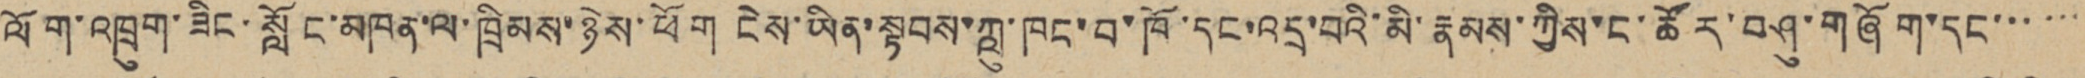ལོག་འཁྲུག་ཟིང་སློང་མཁན་ལ་ཁྲིམས་ཉེས་ཕོག ངེས་ཡིན་སྟབས་ཀླུ་ཁང་བ་ཁོ་དང་འདྲ་བའི་མི་རྣམས་ཀྱིས་ང་ཚོར་བཤུ་གཞོག་དང་་་་་་
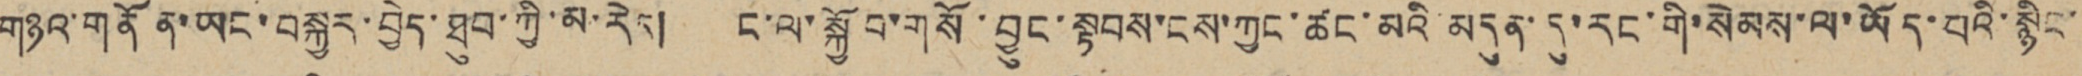གཉའ་གནོན་ཡང་བསྐྱར་བྱེད་ཐུབ་ཀྱི་མ་རེད། ང་ལ་སྐྱོབ་གསོ་བྱུང་སྟབས་ངས་ཀྱང་ཚང་མའི་མདུན་དུ་རང་གི་སེམས་ལ་ཡོད་པའི་སྙིང་
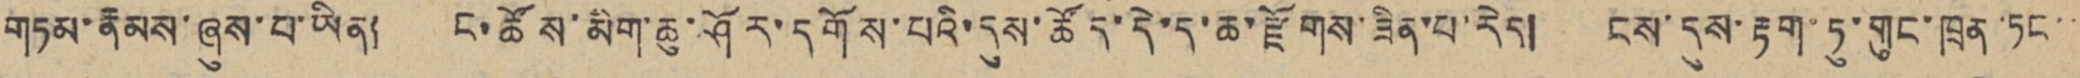གཏམ་རྣམས་ཞུས་པ་ཡིན། ང་ཚོས་མིག་ཆུ་ཤོར་དགོས་པའི་དུས་ཚོད་དེ་ད་ཆ་རྫོགས་ཟིན་པ་རེད། ངས་དུས་རྟག་ཏུ་གུང་ཁྲན་ཏང་
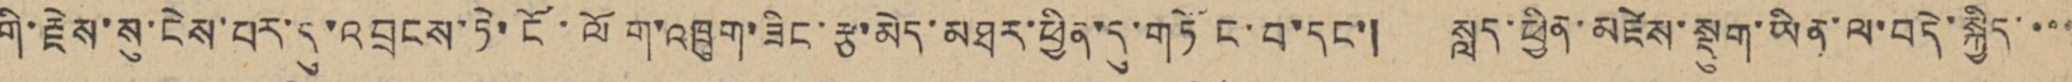གི་རྗེས་སུ་ངེས་པར་དུ་འབྲངས་ཏེ་ངོ་ལོག་འཁྲུག་ཟིང་རྩ་མེད་མཐར་ཕྱིན་དུ་གཏོང་བ་དང་། སླད་ཕྱིན་མཛེས་སྡུག་ཡིན་ལ་བདེ་སྐྱིད་་་་
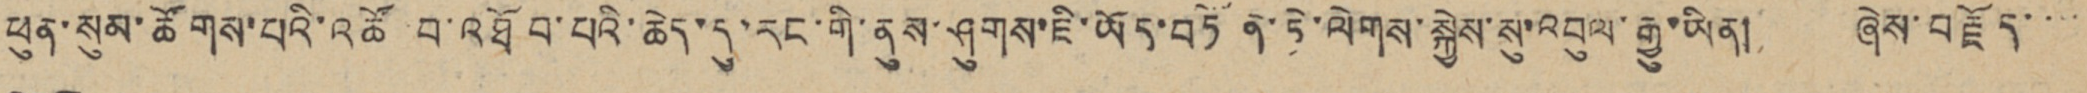ཕུན་སུམ་ཚོགས་པའི་འཚོ བ་འཐོབ་པའི་ཆེད་དུ་རང་གི་ནུས་ཤུགས་ཇི་ཡོད་བཏོན་ཏེ་ལེགས་སྐྱེས་སུ་འབུལ་རྒྱུ་ཡིན། ཞེས་བརྗོད་་་་
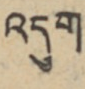འདུག
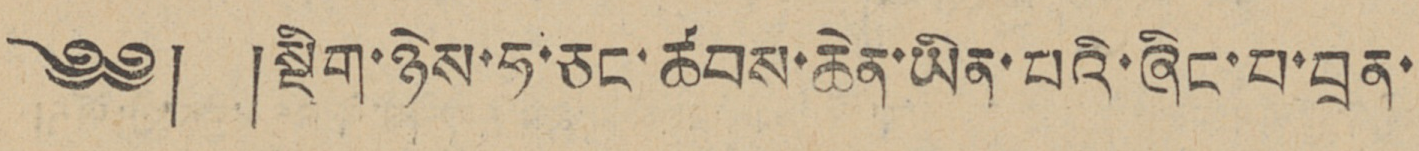༄༅། །སྡིག་ཉེས་ཧ་ཅང་ཚབས་ཆེན་ཡིན་པའི་ཞིང་པ་བྲན་
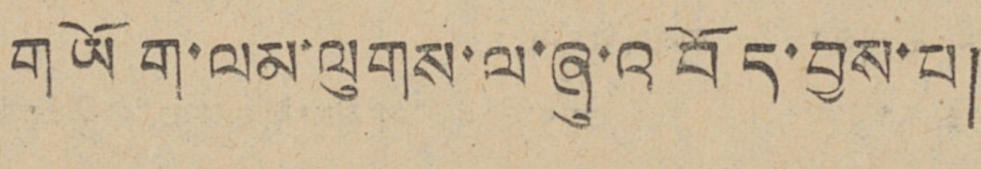གཡོག་ལམ་ལུགས་ལ་ཞུ་འབོད་བྱས་པ།
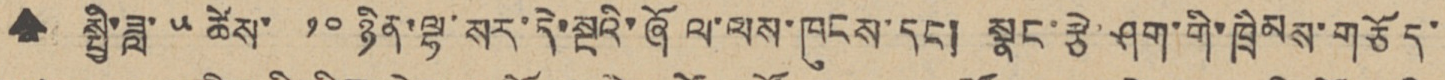🠹 སྤྱི་ཟླ་ ༥ ཚེས་ ༡༠ ཉིན་ལྷ་སར་དེ་སྔའི་ཞོལ་ལས་ཁུངས་དང། སྣང་རྩེ་ཤག་གི་ཁྲིམས་གཅོད་
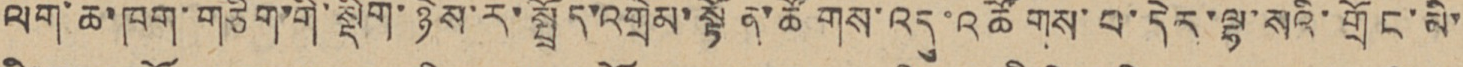ལག་ཆ་ཁག་གཅིག་གི་སྡིག་ཉེས་ར་སྤྲོད་འགྲེམ་སྟོན་ཚོགས་འདུ་འཚོགས་པ་དེར་ལྷ་སའི་གྲོང་མི་
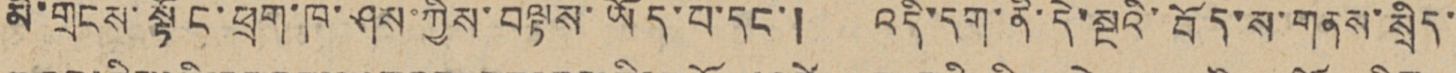མི་གྲངས་སྟོང་ཕྲག་ཁ་ཤས་ཀྱིས་བལྟས་ཡོད་པ་དང་། འདི་དག་ནི་དེ་སྔའི་བོད་ས་གནས་སྲིད་
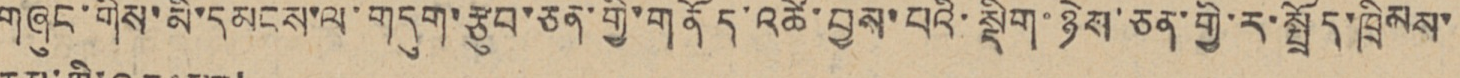གཞུང་གིས་མི་དམངས་ལ་གདུག་ཙུབ་ཅན་གྱི་གནོད་འཚེ་བྱས་པའི་སྡིག་ཉེས་ཅན་གྱི་ར་སྤྲོད་ཁྲིམས་
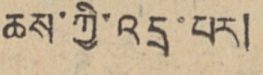ཆས་ཀྱི་འདྲ་པར།
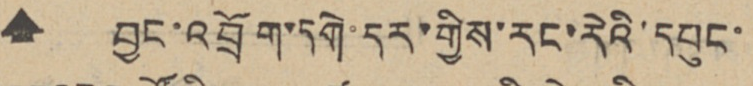🠹 བྱང་འབྲོག་དགེ་དར་གྱིས་རང་རེའི་དཔུང་
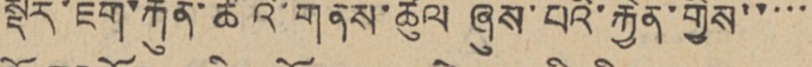སྡེར་ཇག་རྐུན་ཚོའི་གནས་ཚལ ཞུས་པའི་རྐྱེན་གྱིས་་་་་
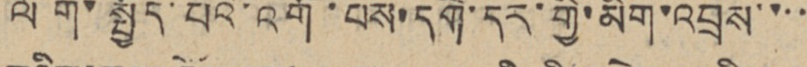ལོག་སྤྱོད་པའི་འགོ་པས་དགེ་དར་གྱི་མིག་འབྲས་་་་
